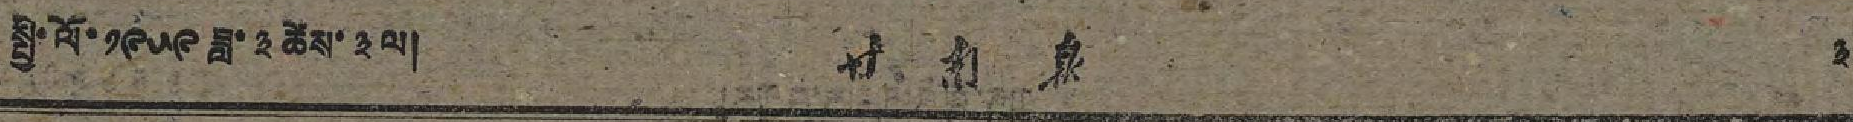སྤྱི་ལོ་ ༡༩༥༩ ཟླ་ ༣ ཚེས་ ༣ ལ། 甘 南 報 ༣
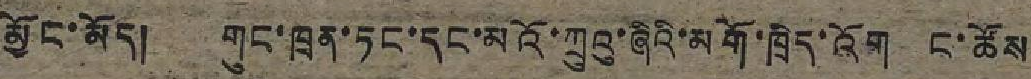མྱོང་མོད། གུང་ཁྲན་ཏང་དང་མའོ་ཀྲུའུ་ཞིའི་མགོ་ཁྲིད་འོག ང་ཚོས
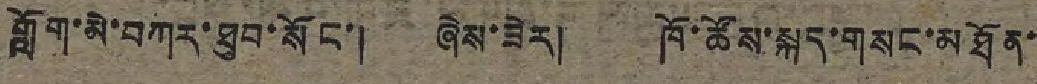གློག་མེ་བཀར་ཐུབ་སོང་། ཞེས་ཟེར། ཁོ་ཚོས་སྐད་གསང་མཐོན་
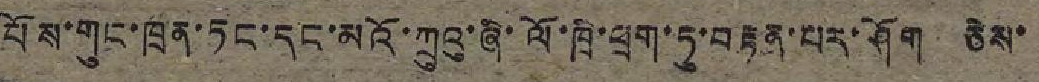པོས་གུང་ཁྲན་ཏང་དང་མའོ་ཀྲུའུ་ཞི་ལོ་ཁྲི་ཕྲག་ཏུ་བརྟན་པར་ཤིག ཅེས་
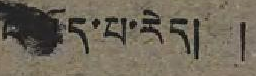འཇོད་པ་རེད། །
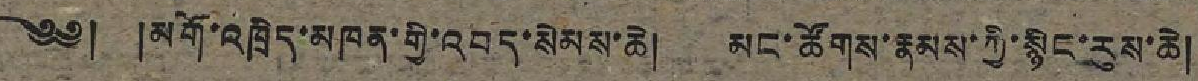༄༅། །མགོ་འཁྲིད་མཁན་གྱི་འབད་སེམས་ཆེ། མང་ཚོགས་རྣམས་ཀྱི་སྙིང་རུས་ཆེ།
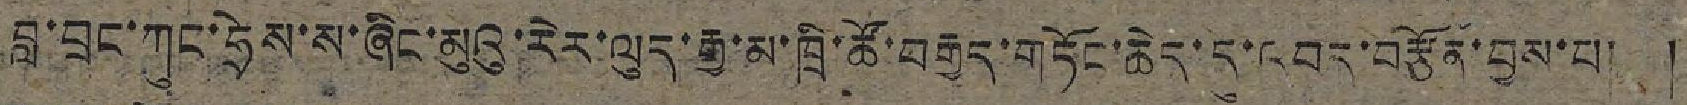བླ་བྲང་ཀུང་ཧྲེས་ས་ཞིང་མུའུ་རེར་ལུད་རྒྱ་མ་ཁྲི་ཚོ་བརྒྱད་གཏོང་ཆེད་དུ་འབད་བརྩོན་བྱས་པ། །
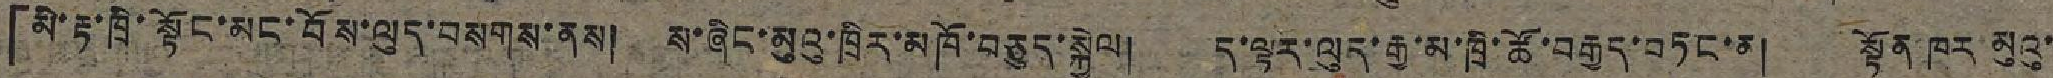「མེ་རྟ་ཁྲི་སྟོང་མང་བོས་ལུད་བསགས་ནས། ས་ཞིང་མུའུ་ཁྲིར་མཁོ་བཅུད་སྐྱེལ། ད་ལྟར་ལུད་རྒྱ་མ་ཁྲི་ཚོ་བརྒྱད་བཏང་ན། སྟོན ཁར མུའུ་
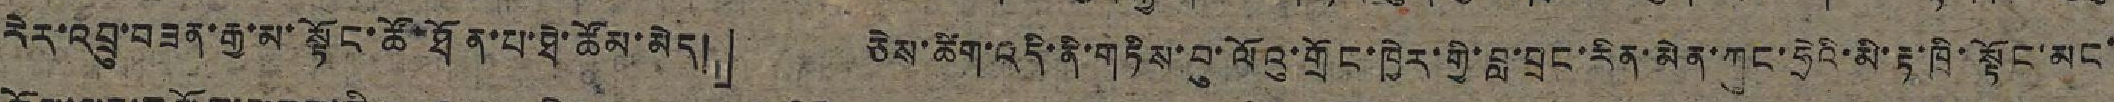རེར་འབྲུ་བཟན་རྒྱ་མ་སྟོང་ཚོ་ཐོན་པ་ཐེ་ཚོམ་མེད།」 ཅེས་ཚིག་འདི་ནི་གཏིས་བུ་ལོའུ་གྲོང་ཁྱེར་གྱི་བླ་བྲང་རིན་མེན་ཀུང་ཧྲེའི་མི་རྟ་ཁྲི་སྟོང་མང་
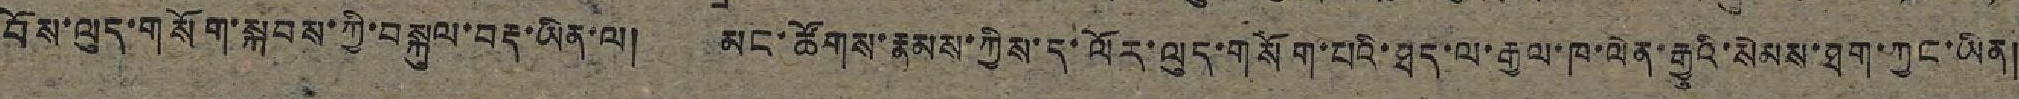བོས་ལུད་གསོག་སྐབས་ཀྱི་བསྐུལ་བརྡ་ཡིན་ལ། མང་ཚོགས་རྣམས་ཀྱིས་ད་ལོར་ལུད་གསོག་བའི་ཐད་ལ་རྒྱལ་ཁ་ལེན་རྒྱུའི་སེམས་ཐག་ཀྱང་ཡིན།
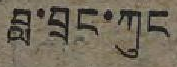བླ་བྲང་ཀུང
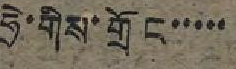ཧྲེ་གིས་གྲོང་་་་་
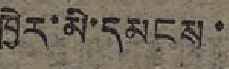ཁྱེར་མི་དམངས་
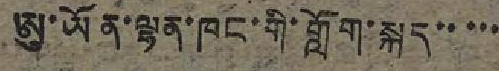ཨུ་ཡོན་ལྷན་ཁང་གི་གློག་སྐད་་་་་
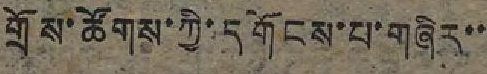གྲོས་ཚོགས་ཀྱི་དགོངས་པ་གཞིར་་
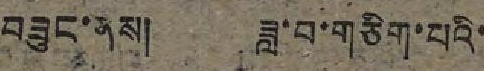བཟུང་ནས། ཟླ་བ་གཅིག་པའི་
